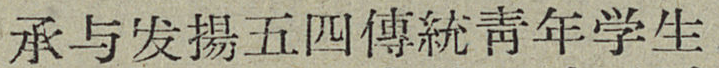承与发揚五四傳統靑年学生
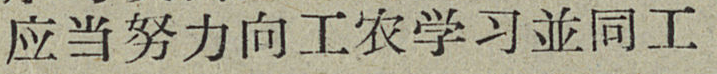应当努力向工农学习並同工
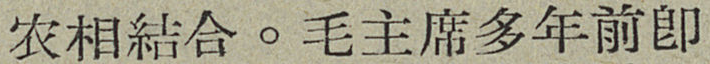农相結合。毛主席多年前卽
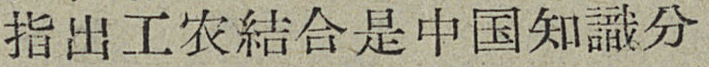指出工农結合是中国知識分
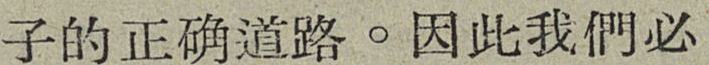子的正确道路。因此我們必
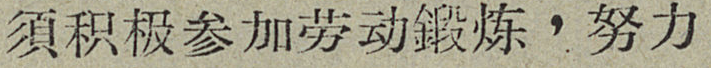須积极参加劳动鍛炼，努力
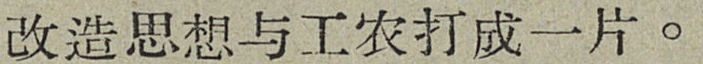改造思想与工农打成一片。
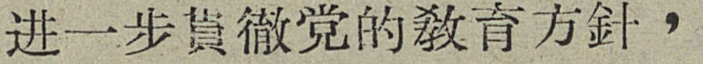进一步貫徹党的敎育方針，
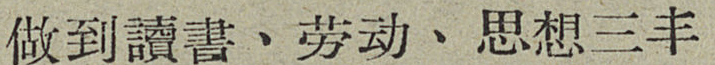做到讀書、劳动、思想三丰
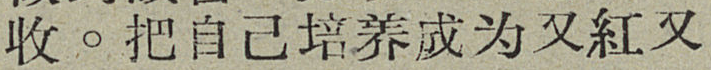收。把自己培养成为又紅又
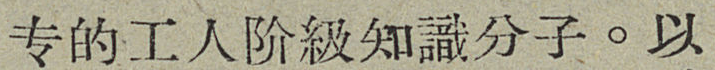专的工人阶級知識分子。以
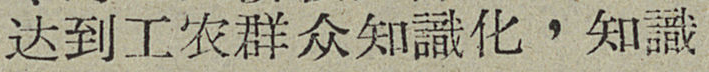达到工农群众知識化，知識
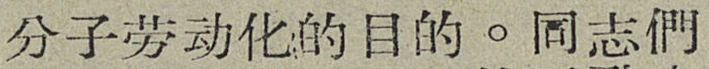分子劳动化的目的。同志們
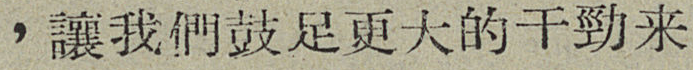，讓我們鼓足更大的干勁来
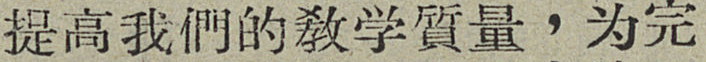提高我們的敎学質量，为完
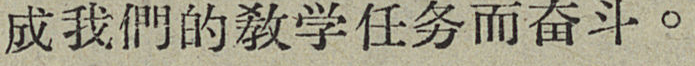成我們的敎学任务而奋斗。
